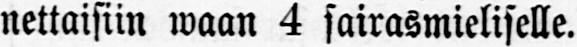nettaisiin waan 4 sairasmieliselle.
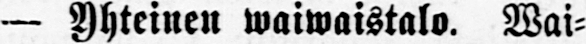— Yhteinen waiwaistalo. Wai-
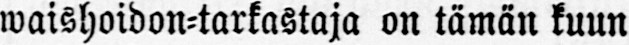waishoidon-tarkastaja on tämän kuun
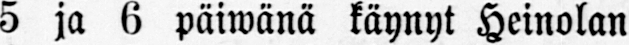5 ja 6 päiwänä käynyt Heinolan
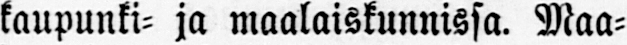kaupunki- ja maalaiskunnissa. Maa-
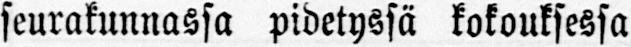seurakunnassa pidetyssä kokouksessa
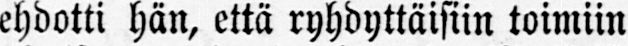ehdotti hän, että ryhdyttäisiin toimiin
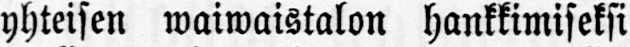yhteisen waiwaistalon hankkimiseksi
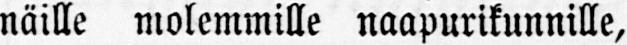näille molemmille naapurikunnille,
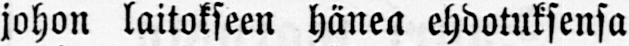johon laitokseen hänen ehdotuksensa
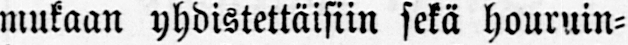mukaan yhdistettäisiin sekä houruin-
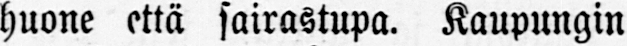huone että sairastupa. Kaupungin
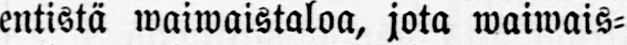entistä waiwaistaloa, jota waiwais-
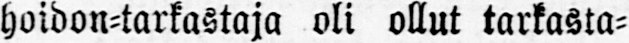hoidon-tarkastaja oli ollut tarkasta-
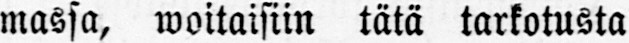massa, woitaisiin tätä tarkotusta
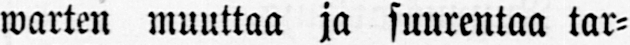warten muuttaa ja suurentaa tar-
